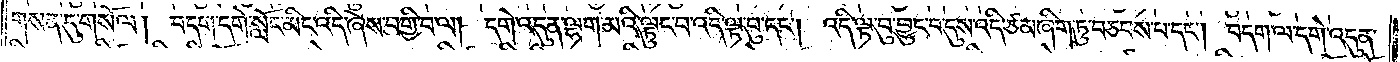གསན་དུ་གསོལ། བདག་དགེ་སློང་མིང་འདི་ཞེས་བགྱི་བ་ལ། དགེ་འདུན་ལྷག་མའི་ལྟུང་བ་འདི་ལྟ་བུ་དང༌། འདི་ལྟ་བུ་བྱུང་བ་དུས་འདི་ཙམ་ཞིག་ཏུ་བཅབས་པ་དང༌། བདག་ལ་དགེ་འདུན་
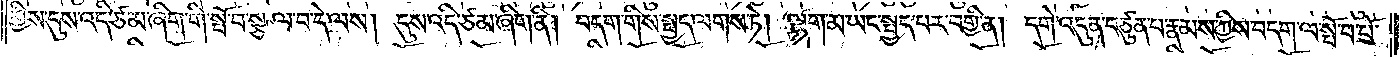གྱིས་དུས་འདི་ཙམ་ཞིག་གི་སྤོ་བ་སྩལ་བ་དེ་ལས། དུས་འདི་ཙམ་ཞིག་ནི། བདག་གིས་སྤྱད་ལགས་ཏེ། ལྷག་མ་ཡང་སྤྱད་པར་བགྱི་ན། དགེ་འདུན་བཙུན་པ་རྣམས་ཀྱིས་བདག་ལ་སྤོ་བ་པོ་
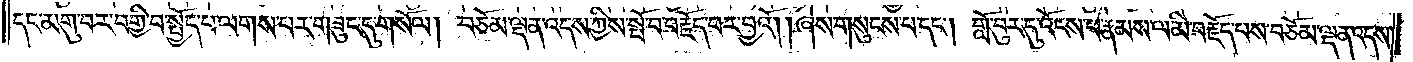དང་མགུ་བར་བགྱི་བ་སྤྱོད་པ་ལགས་པར་གཟུང་དུ་གསོལ། བཅོམ་ལྡན་འདས་ཀྱིས་སྤོ་བ་བརྗོད་པར་བྱའོ། །ཞེས་གསུངས་པ་དང༌། གློ་བུར་དུ་འོངས་པ་རྣམས་ལ་མི་བརྗོད་པས་བཅོམ་ལྡན་འདས་
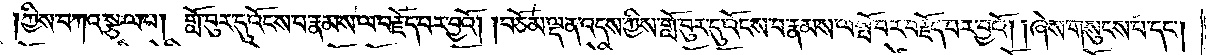ཀྱིས་བཀའ་སྩལ་པ། གློ་བུར་དུ་འོངས་པ་རྣམས་ལ་བརྗོད་པར་བྱའོ། །བཅོམ་ལྡན་འདས་ཀྱིས་གློ་བུར་དུ་འོངས་པ་རྣམས་ལ་སྤོ་བར་བརྗོད་པར་བྱའོ། །ཞེས་གསུངས་པ་དང༌།
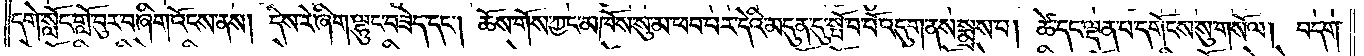དགེ་སློང་གློ་བུར་བ་ཞིག་འོངས་ནས། དེས་རེ་ཞིག་ལྷུང་བཟེད་དང༌། ཆོས་གོས་ཀྱང་མཁོས་སུ་མ་ཕབ་པར་དེའི་མདུན་དུ་སྦོ་བ་བོ་འདུག་ནས་སྨྲས་པ། ཚེ་དང་ལྡན་པ་དགོངས་སུ་གསོལ། བདག་
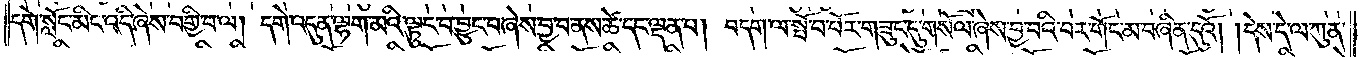དགེ་སློང་མིང་འདི་ཞེས་བགྱི་བ་ལ། དགེ་འདུན་ལྷག་མའི་ལྟུང་བ་བྱུང་བ་ཞེས་བྱ་བ་ནས་ཚེ་དང་ལྡན་པ། བདག་ལ་སྤོ་བ་པོར་གཟུང་དུ་གསོལ་ཞེས་བྱ་བའི་བར་གོང་མ་བཞིན་དུའོ། །དེས་དེ་ལ་ཀུན་
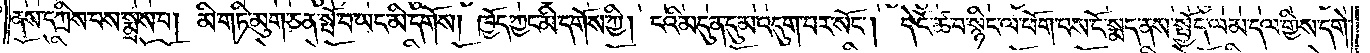ནས་དཀྲིས་བས་སྨྲས་པ། མི་གཏི་མུག་ཅན་སྤོ་བ་ཡང་མི་དགོས། ཁྱོད་ཀྱང་མི་དགོས་ཀྱི། ངའི་མདུན་དུ་མ་འདུག་པར་སོང༌། དེ་ངོ་ཚ་བ་སྙིང་ལ་ཕོག་པས་ངོ་སྨད་ནས་སྤྱོད་ལམ་དལ་གྱིས་དགེ་
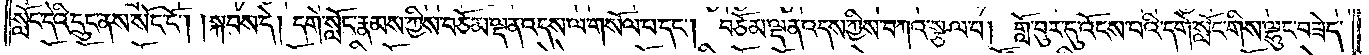སློང་དེའི་དྲུང་ནས་སོང་ངོ༌། །སྐབས་དེ། དགེ་སློང་རྣམས་ཀྱིས་བཅོམ་ལྡན་འདས་ལ་གསོལ་པ་དང༌། བཅོམ་ལྡན་འདས་ཀྱིས་བཀའ་སྩལ་པ། གློ་བུར་དུ་འོངས་པའི་དགེ་སློང་གིས་ལྷུང་བཟེད་
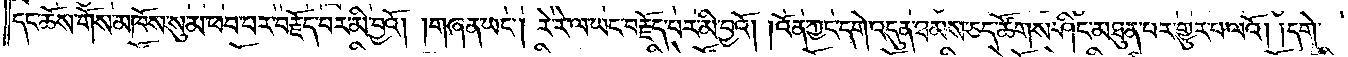དང་ཆོས་གོས་མཁོས་སུ་མ་ཕབ་པར་བརྗོད་པར་མི་བྱའོ། །གཞན་ཡང༌། རེ་རེ་ལ་ཡང་བརྗོད་པར་མི་བྱའོ། །འོན་ཀྱང་དགེ་འདུན་ཐམས་ཅད་ཚོགས་ཤིང་མཐུན་པར་གྱུར་པ་ལའོ། །དགེ་
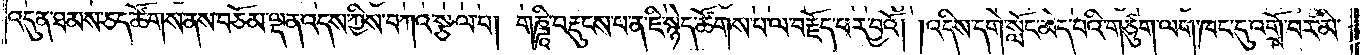འདུན་ཐམས་ཅད་ཚོགས་ནས་བཅོམ་ལྡན་འདས་ཀྱིས་བཀའ་སྩལ་པ། གཎྜཱི་བརྡུངས་པ་ན་ཇི་སྙེད་ཚོགས་པ་ལ་བརྗོད་པར་བྱའོ། །འདིས་དགེ་སློང་མེད་པའི་གཙུག་ལག་ཁང་དུ་འགྲོ་བར་མི་
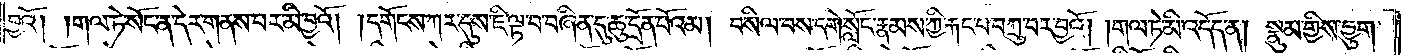བྱའོ། །གལ་ཏེ་སོང་ན་དེར་གནས་པར་མི་བྱའོ། །དགོངས་ཀར་དུས་ཇི་ལྟ་བ་བཞིན་དུ་ཆུ་དྲོན་པོའམ། བསིལ་བས་དགེ་སློང་རྣམས་ཀྱི་རྐང་པ་བཀྲུ་བར་བྱའོ། །གལ་ཏེ་མི་འདོད་ན། སྣུམ་གྱིས་བྱུག་
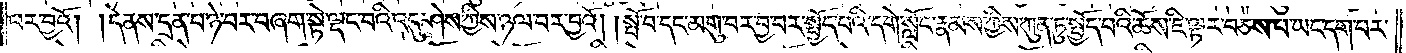བར་བྱའོ། །དེ་ནས་དྲན་པ་ཉེ་བར་བཞག་སྟེ་ལྡང་བའི་འདུ་ཤེས་ཀྱིས་ཉལ་བར་བྱའོ། །སྤོ་བ་དང་མགུ་བར་བྱ་བར་སྤྱོད་པའི་དགེ་སློང་རྣམས་ཀྱིས་ཀུན་ཏུ་སྤྱོད་པའི་ཆོས་ཇི་ལྟར་བཅས་པ་ཡང་དག་པར་
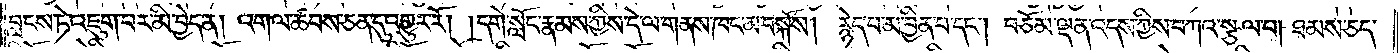བླངས་ཏེ་འཇུག་པར་མི་བྱེད་ན། འགལ་ཚབས་ཅན་དུ་འགྱུར་རོ། །དགེ་སློང་རྣམས་ཀྱིས་དེ་ལ་གནས་ཁང་མ་བསྐོས། རྙེད་པ་མ་བྱིན་པ་དང༌། བཅོམ་ལྡན་འདས་ཀྱིས་བཀའ་སྩལ་པ། ཐམས་ཅད་
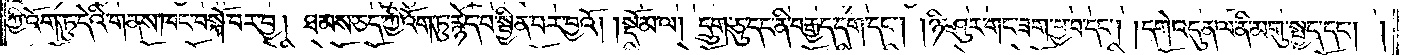ཀྱི་འོག་ཏུ་དེའི་གནས་ཁང་བསྐོ་བར་བྱ། ཐམས་ཅད་ཀྱི་འོག་ཏུ་རྙེད་པ་སྦྱིན་པར་བྱའོ། །སྡོམ་ལ། དྲུག་ཅུ་དང་ནི་བརྒྱད་དག་དང༌། །ཉི་ཤུར་གང་ཟག་བྱ་བ་དང༌། །དགེ་འདུན་ལ་ནི་མགུ་སྤྱད་དང༌། །
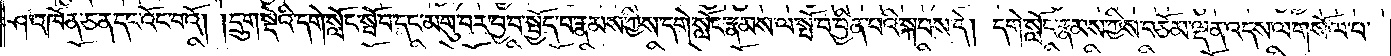ཤ་འཁོན་ཅན་དང་འོང་བའོ། །དྲུག་སྡེའི་དགེ་སློང་སྤོ་བ་དང་མགུ་བར་བྱ་བ་སྤྱོད་པ་རྣམས་ཀྱིས་དགེ་སློང་རྣམས་ལ་སྤོ་བ་བྱིན་པའི་སྐབས་དེ། དགེ་སློང་རྣམས་ཀྱིས་བཅོམ་ལྡན་འདས་ལ་གསོལ་བ་
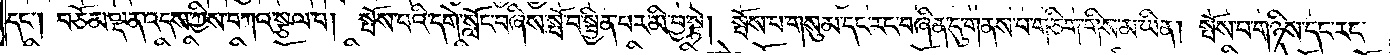དང༌། བཅོམ་ལྡན་འདས་ཀྱིས་བཀའ་སྩལ་པ། སྤོས་བའི་དགེ་སློང་བཞིས་སྤོ་བ་སྦྱིན་པར་མི་བྱ་སྟེ། སྤོས་པ་གསུམ་དང་རང་བཞིན་དུ་གནས་པ་གཅིག་གིས་མ་ཡིན། སྤོས་པ་གཉིས་དང་རང་
